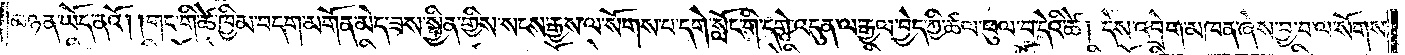མཉན་ཡོད་ནའོ། །གང་གི་ཚེ་ཁྱིམ་བདག་མགོན་མེད་ཟས་སྦྱིན་གྱིས་སངས་རྒྱས་ལ་སོགས་པ་དགེ་སློང་གི་དགེ་འདུན་ལ་རྒྱལ་བྱེད་ཀྱི་ཚལ་ཕུལ་བ་དེའི་ཚེ། དེས་འབྲེག་མཁན་ཞེས་བྱ་བ་ལ་སོགས་
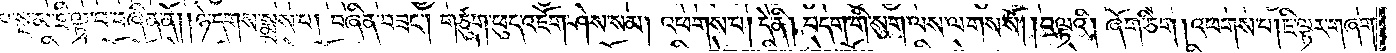པ་སྔ་མ་ཇི་ལྟ་བ་བཞིན་ནོ། །ཉེ་དགས་སྨྲས་པ། བཞིན་བཟང༌། གཙུག་ཕུད་འཇོག་ཤེས་སམ། འཕགས་པ། དེ་ནི། བདག་གི་སུག་ལས་ལགས་སོ། །བལྟའི། ཞོག་ཅིག །འཕགས་པ། ཇི་ལྟར་གཞག་
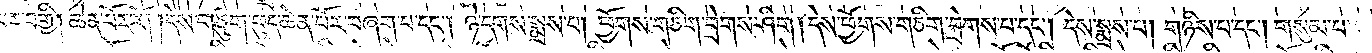པར་བགྱི། ཆེན་པོར་རོ། །དེས་གཙུག་ཕུད་ཆེན་པོར་བཞག་པ་དང༌། ཉེ་དགས་སྨྲས་པ། ཕྱོགས་གཅིག་བྲེགས་ཤིག །དེས་ཕྱོགས་གཅིག་བྲེགས་པ་དང༌། དེས་སྨྲས་པ། གཉིས་པ་དང༌། གསུམ་པ་
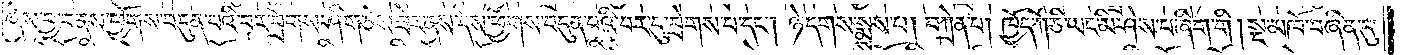ཞེས་བྱ་བ་ནས་ཕྱོགས་བདུན་པའི་བར་བྲེགས་ཤིག་ཅེས་ཟེར་ནས་དེས་ཕྱོགས་བདུན་པའི་བར་དུ་བྲེགས་པ་དང༌། ཉེ་དགས་སྨྲས་པ། བཀྲེན་པ། ཁྱོད་ཀོ་ཅི་ཡང་མི་ཤེས་པ་ཞིག་གི ། སྔ་མཁོ་བཞིན་དུ་
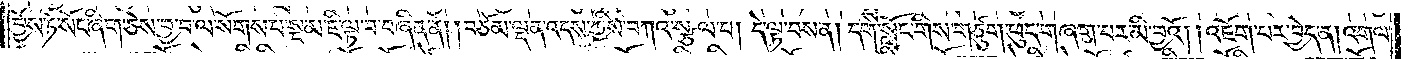བྱོས་ཏེ་སོང་ཞིག་ཅེས་བྱ་བ་ལ་སོགས་པ་སྔ་མ་ཇི་ལྟ་བ་བཞིན་ནོ། །བཅོམ་ལྡན་འདས་ཀྱིས་བཀའ་སྩལ་པ། དེ་ལྟ་བས་ན། དགེ་སློང་གིས་གཙུག་ཕུད་གཞག་པར་མི་བྱའོ། །འཇོག་པར་བྱེད་ན། འགལ་
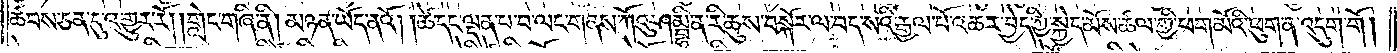ཚབས་ཅན་དུ་འགྱུར་རོ། །གླེང་གཞི་ནི། མཉན་ཡོད་ནའོ། །ཚེ་དང་ལྡན་པ་བ་ལང་གནས་ཀོའུ་ཤམྦྷི་ན་རི་ཆུས་བསྐོར་ལ་བད་སའི་རྒྱལ་པོ་འཆར་བྱེད་ཀྱི་སྐྱེད་མོས་ཚལ་གྱི་ཕག་མོའི་ཕུག་ན་འདུག་གོ།
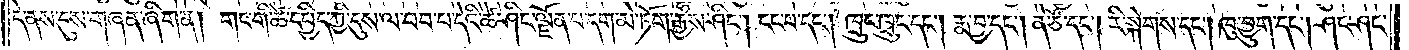དེ་ནས་དུས་གཞན་ཞིག་ན། གང་གི་ཚེ་དཔྱིད་ཀྱི་དུས་ལ་བབ་པ་དེའི་ཚེ་ཤིང་ལྗོན་པ་དག་མེ་ཏོག་རྒྱས་ཤིང༌། ངང་པ་དང༌། ཁྲུང་ཁྲུང་དང༌། རྨ་བྱ་དང༌། ནེ་ཙོ་དང༌། རི་སྐེགས་དང༌། ཁུ་བྱུག་དང༌། ཤང་ཤང་
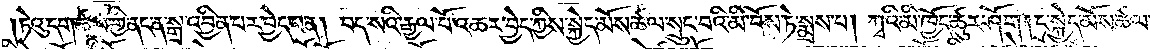ཏེའུ་དག་ཚལ་གྱི་ནང་ན་སྒྲ་འབྱིན་པར་བྱེད་པ་ན། བད་སའི་རྒྱལ་པོ་འཆར་བྱེད་ཀྱིས་སྐྱེད་མོས་ཚལ་སྲུང་བའི་མི་བོས་ཏེ་སྨྲས་པ། ཀྭའི་མི་ཁྱོད་ཚུར་ཤོག །ང་སྐྱེད་མོས་ཚལ་
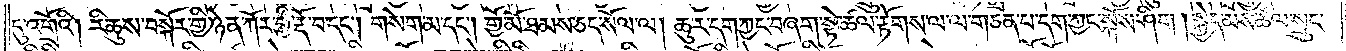དུ་འགྲོའི། རི་ཆུས་བསྐོར་གྱི་ཉེན་ཀོར་གྱི་རྡོ་བ་དང༌། གསེག་མ་དང༌། གྱོ་མོ་ཐམས་ཅད་སོལ་ལ། ཆུ་ར་དག་ཀྱང་བཞག་སྟེ་ཚལ་རྟོགས་ལ་ལ་གཅན་པ་དག་ཀྱང་སྐོས་ཤིག །སྐྱེད་མོས་ཚལ་སྲུང་
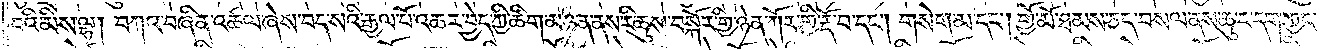བའི་མིས་ལྷ། བཀའ་བཞིན་འཚལ་ཞེས་བད་སའི་རྒྱལ་པོ་འཆར་བྱེད་ཀྱི་ཚིག་མཉན་ནས་རི་ཆུས་བསྐོར་གྱི་ཉེན་ཀོར་གྱི་རྡོ་བ་དང༌། གསེག་མ་དང༌། གྱོ་མོ་ཐམས་ཅད་བསལ་ནས་ཆུ་ར་དག་ཀྱང་
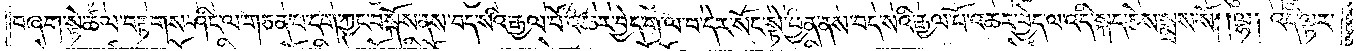བཞག་སྟེ་ཚལ་བརྟགས་ཤིང་ལ་གཅན་པ་དག་ཀྱང་བསྐོས་ནས་བད་སའི་རྒྱལ་པོ་འཆར་བྱེད་ག་ལ་བ་དེར་སོང་སྟེ་ཕྱིན་ནས་བད་སའི་རྒྱལ་པོ་འཆར་བྱེད་ལ་འདི་སྐད་ཅེས་སྨྲས་སོ། །ལྷ། འདི་ལྟར་
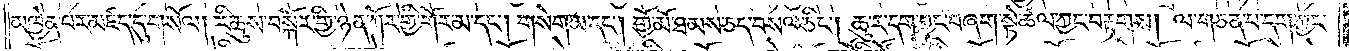མཁྱེན་པར་མཛད་དུ་གསོལ། རི་ཆུས་བསྐོར་གྱི་ཉེན་ཀོར་གྱི་གོར་མ་དང༌། གསེག་མ་དང༌། གྱོ་མོ་ཐམས་ཅད་བསལ་ཅིང༌། ཆུ་ར་དག་ཀྱང་བཞག་སྟེ་ཚལ་ཀྱང་བརྟགས། ལ་གཅན་པ་དག་ཀྱང་
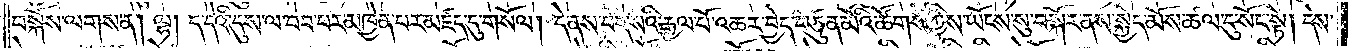བསྐོས་ལགས་ན། ལྷ། ད་དེའི་དུས་ལ་བབ་པར་མཁྱེན་པར་མཛད་དུ་གསོལ། དེ་ནས་བད་སའི་རྒྱལ་པོ་འཆར་བྱེད་བཙུན་མོའི་ཚོགས་ཀྱིས་ཡོངས་སུ་བསྐོར་ནས་སྐྱེད་མོས་ཚལ་དུ་སོང་སྟེ། དེས་
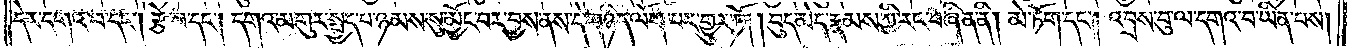དེར་དགའ་བ་དང༌། རྩེ་བ་དང༌། དགའ་མགུར་སྤྱད་པ་ཉམས་སུ་མྱོང་བར་བྱས་ནས་དེ་གཉིད་ལོག་པར་གྱུར་ཏོ། །བུད་མེད་རྣམས་ཀྱི་རང་བཞིན་ནོ། །མེ་ཏོག་དང༌། འབྲས་བུ་ལ་དགའ་བ་ཡིན་པས།
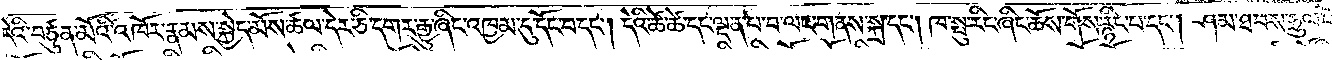དེའི་བཙུན་མོའི་འཁོར་རྣམས་སྐྱེད་མོས་ཚལ་དེར་ཅི་དགར་རྒྱུ་ཞིང་འཁྱམ་དུ་དོང་བ་དང༌། དེའི་ཚེ་ཚེ་དང་ལྡན་པ་བ་ལང་གནས་སྐྲ་དང༌། ཁ་སྤུ་རིང་ཞིང་ཆོས་གོས་རྙིང་པ་དང༌། ཤམ་ཐབས་ཧྲུལ་པོ་
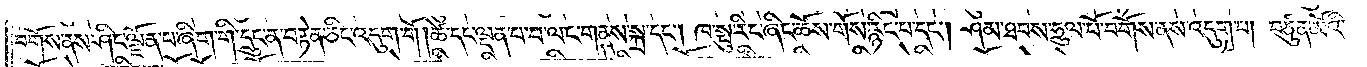བགོས་ནས་ཤིང་ལྗོན་པ་ཞིག་གི་དྲུང་ན་བརྟེན་ཅིང་འདུག་གོ །ཚེ་དང་ལྡན་པ་བ་ལང་གནས་སྐྲ་དང༌། ཁ་སྤུ་རིང་ཞིང་ཆོས་གོས་རྙིང་པ་དང༌། ཤམ་ཐབས་ཧྲུལ་པོ་བགོས་ནས་འདུག་པ། བཙུན་མོའི་
